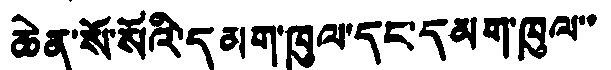ཆེན་སོ་སོའི་དམག་ཁུལ་དང་དམག་ཁུལ་་
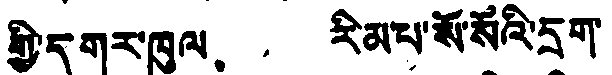གྱི་དགར་ཁུལ、 རིམ་པ་སོ་སོའི་དྲག་
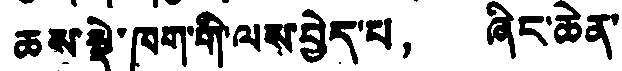ཆས་སྡེ་ཁག་གི་ལས་བྱེད་པ， ཞིང་ཆེན་
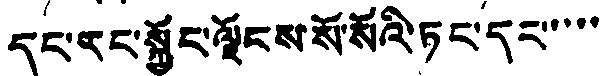དང་རང་སྐྱོང་ལྗོངས་སོ་སོའི་ཏང་དང་་་་་
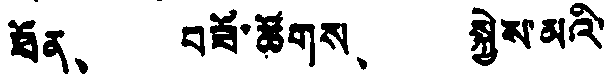ཐོན、 བཟོ་ཚོགས、 སྐྱེས་མའི་
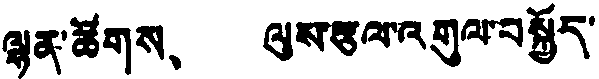ལྷན་ཚོགས、 ལུས་རྩལ་འགུལ་བསྐྱོད་
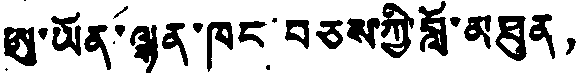ཨུ་ཡོན་ལྷན་ཁང་བཅས་ཀྱི་བློ་མཐུན，
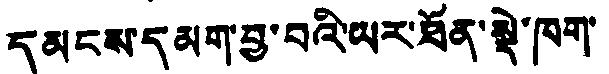དམངས་དམག་བྱ་བའི་ཡར་ཐོན་སྡེ་ཁག་
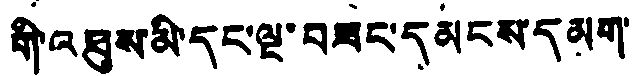གི་འཐུས་མི་དང་ལྔ་བཟང་དམངས་དམག་
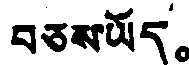བཅས་ཡོད。
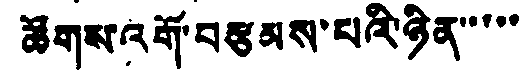ཚོགས་འགོ་བརྩམས་པའི་ཉིན་་་་་
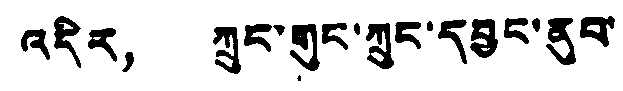འདིར， ཀྲུང་གུང་ཀྲུང་དབྱང་ནུབ་
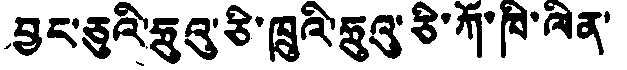བྱང་ཅུའི་ཧྲུའུ་ཅི་ཁྲུའི་ཧྲུའུ་ཅི་ཀོ་ཁི་ལིན་
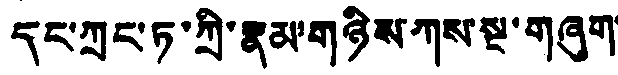དང་ཀྲུང་ཏ་ཀྲི་རྣམ་གཉིས ཀས་སྔ་གཞུག་
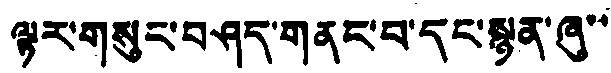ལྟར་གསུང་བཤད་གནང་བ་དང་སྙན་ཞུ་་
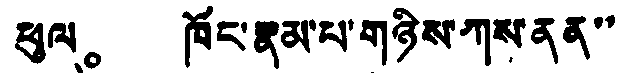ཕུལ。 ཁོང་རྣམ་པ་གཉིས་ཀས་ནན་་
